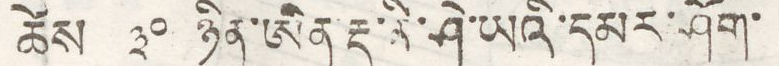ཚེས་ ༣༠ ཉིན་ཨིན་རྡུ་ནི་ཤེ་ཡའི་དམར་ཤོག་
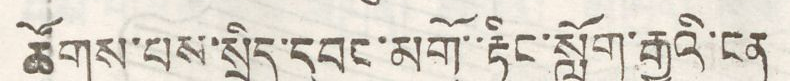ཚོགས་པས་སྲིད་དབང་མགོ་་རྟིང་སློག་རྒྱུའི་ངན
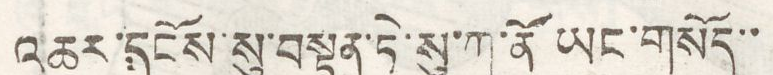འཆར་དངོས་སུ་བསྟན་ཏེ་སུ་ཀ་ནོ་ཡང་གསོད་་
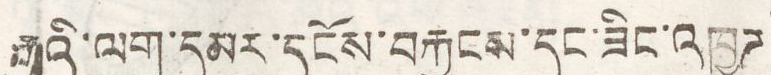རྒྱུའི་ལག་དམར་དངོས་བརྐྱངས་དང་ཟིང་འཁྱུཌ
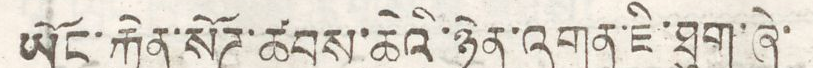ཡོང་རྐྱེན་སོཌ་ཚབས་ཆེའི་ཉིན་འགན་ཇི་ཐུག་ཞེ་
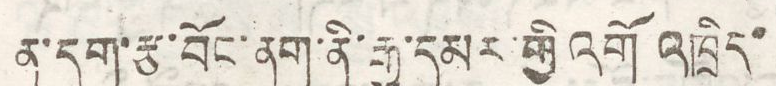ན་དུག་རྩ་བོང་ནག་ནི་རྒྱ་དམར་གྱི འགོ འཁྲིད་
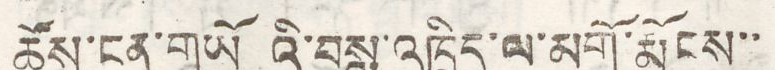ཆོས་ངན་གཡོ འི་བསླུ་འཁྲིད་ལ་མགོ་རྨོངས་་
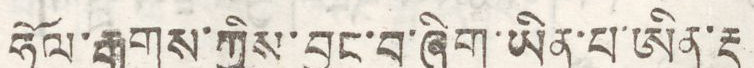ཧོར་རྒྱུགས་ཀྱིས་བྱུང་བ་ཞིག་ཡིན་པ་ཨིན་རྡུ
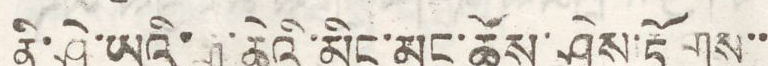ནི་ཤེ་ཡའི་རྒྱ་ཆེའི་མིང་མང་ཚོས་ཤེས་རྟོགས་་
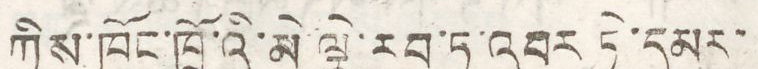ཀྱིས་ཁོང་ཁྲོའི་མེ་ལྕེ་རབ་ཏུ་འབར་ཏེ་དམར་
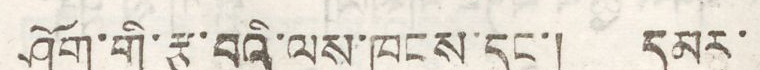ཤོག་གི་རྩ་བའི་ལས་ཁུངས་དང་། དམར་
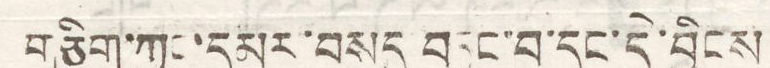གཅིག་ཀྱང་དམར་བསད བཏང་བ་དང་དེ་བྱིངས
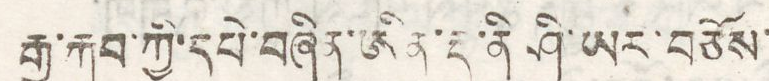རྒྱུ་རྐུབ་ཀྱི་དཔེ་བཞིན་ཨིན་རྡུ་ནི་ཤི་ཡར་བཅོས་
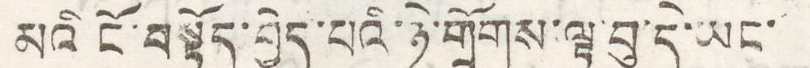མའི ངོ་བསྟོད་བྱེད་པའི་ཉེ་གྲོགས་ལྟ་བུ་དེ་ཡང་
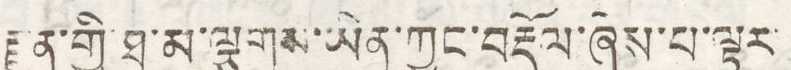རྫུན་གྱི་ཐ་མ་ལྕགས་ཡིན་ཀྱང་བརྡོལ་ཞེས་པ་ལྟར་
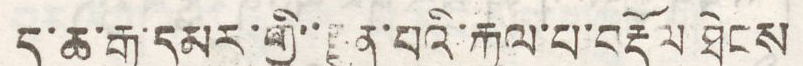ད་ཆ་རྒྱ་དམར་གྱི་རྫུན་པའི་རྐྱལ་པ་བརྡོལ ཐེངས
